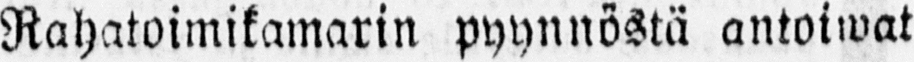Rahatoimikamarin pyynnöstä antoiwat
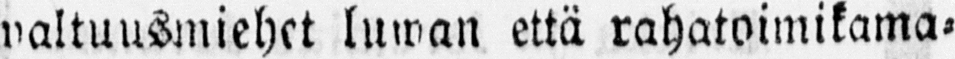waltuusmiehet luwan että rahatoimikama-
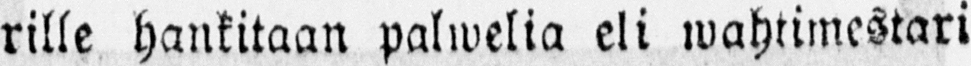rille hankitaan palwelia eli wahtimestari
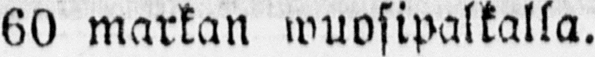60 markan wuosipalkalla.
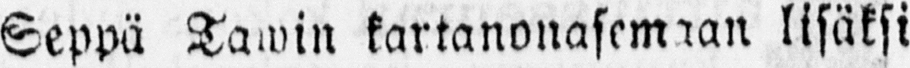Seppä Tawin kartanonasemaan lisäksi
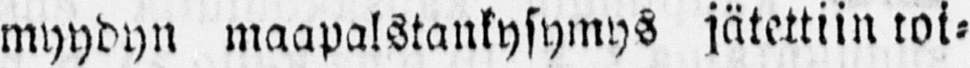myydyn maapalstankysymys jätettiin toi-
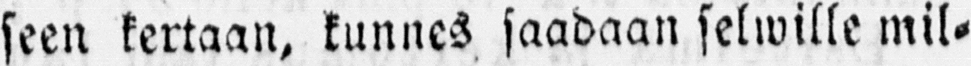seen kertaan, kunnes saadaan selwille mil-
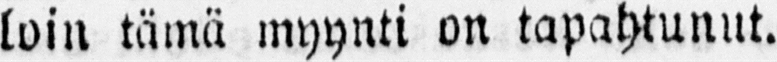loin tämä myynti on tapahtunut.
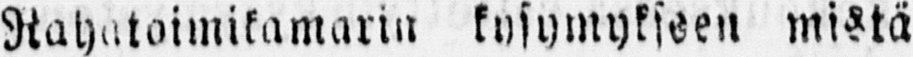Rahatoimikamarin kysymykseen mistä
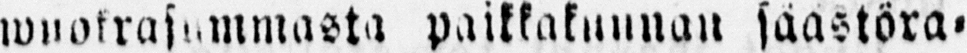wuokrasummasta paikkakunnan säästöra-
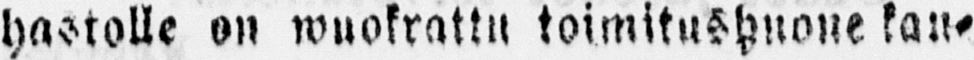hastolle on wuokrattu toimitushuone kan-
